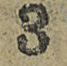3
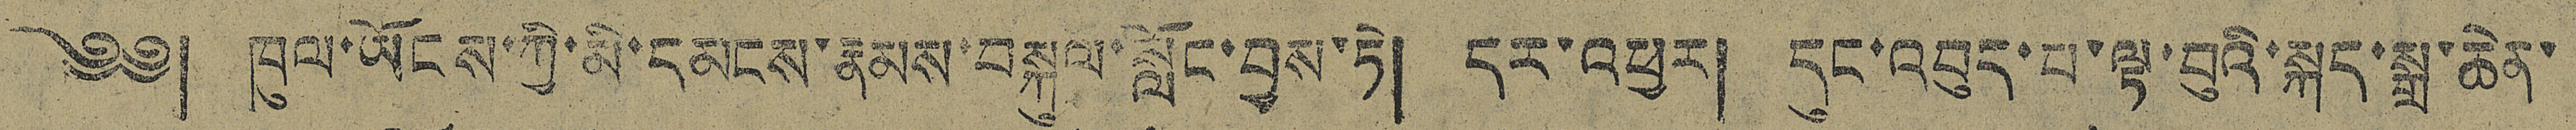༄༅། ཁུལ་ཡོངས་ཀྱི་མི་དམངས་རྣམས་བསྐུལ་སློང་བྱས་ཏེ། དར་འཕྱར། དུང་འབུད་པ་ལྟ་བུའི་སྐད་སྒྲ་ཆེན་
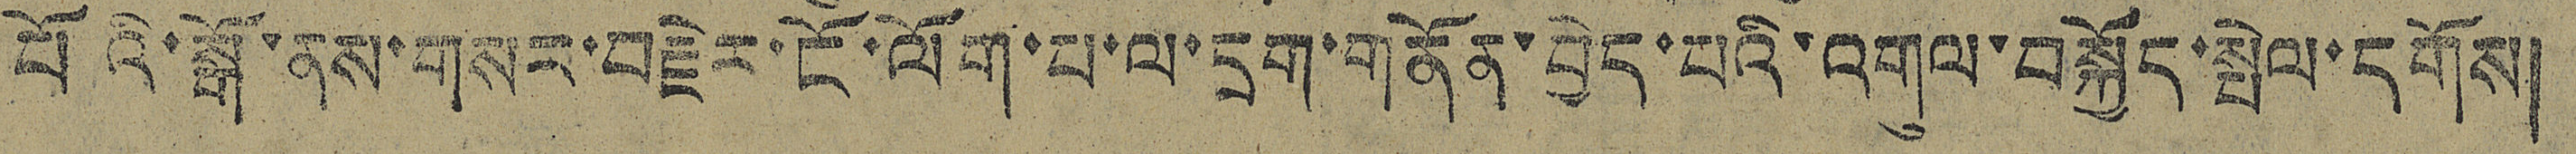པོའི་སྒོ་ནས་གསར་བརྗེར་ངོ་ལོག་པ་ལ་དྲག་གནོན་བྱེད་པའི་འགུལ་བསྐྱོད་སྤེལ་དགོས།
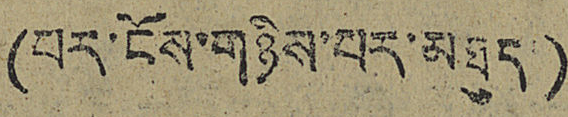(པར་ངོས་གཉིས་པར་མཐུད།)
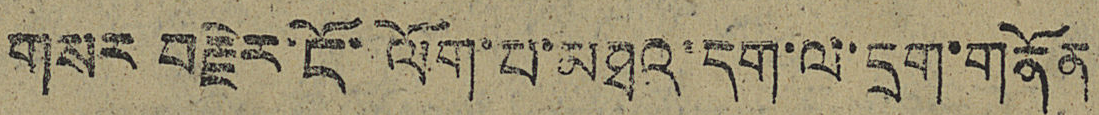གསར བརྗེར་ངོ་ལོག་པ་མཐའ་དག་ལ་དྲག་གནོན
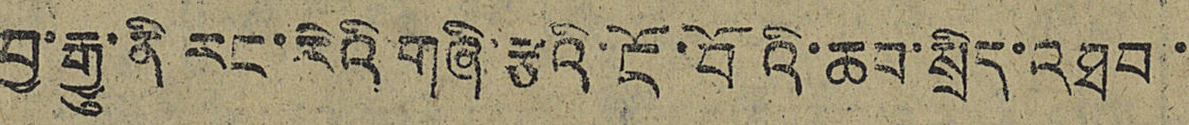བྱ་རྒྱུ་ནི རང་རེའི གཞི་རྩའི་ངོ་བོའི་ཆབ་སྲིད་འཐབ་
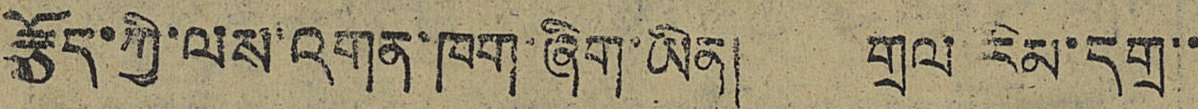རྩོད་ཀྱི་ལས་འགན་ཁག་ཞིག་ཡིན། གྲལ རིམ་དགྲ་་
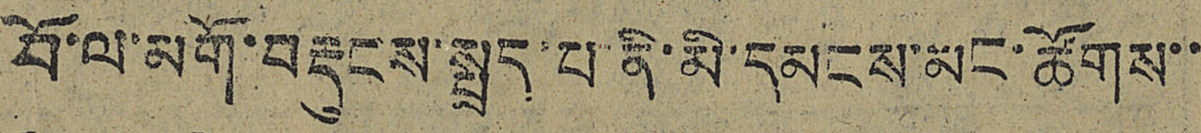བོ་ལ་མགོ་བརྡུངས་སྤྲད་པ་ནི་མི་དམངས་མང་ཚོགས་་
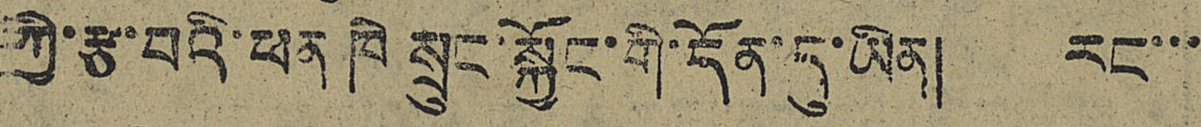ཀྱི་རྩ་བའི་ཕན ཁེ སྲུང་སྐྱོང་གི་དོན་དུ་ཡིན། རང་་་
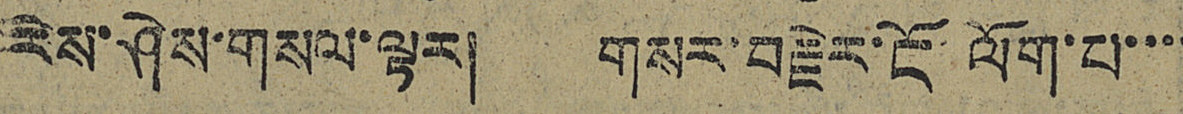རེས་ཤེས་གསལ་ལྟར། གསར་བརྗེར་ངོ་ལོག་པ་་་་
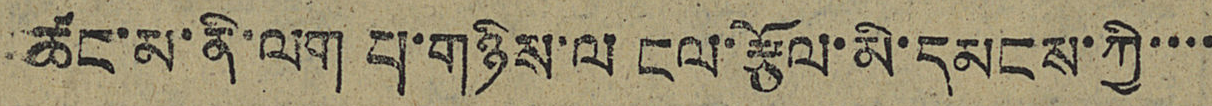ཚང་མ་ནི་ལག པ་གཉིས་ལ ངལ་རྩོལ་མི་དམངས་ཀྱི་་་་
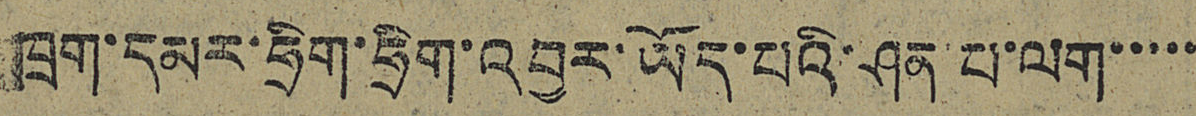ཁྲག་དམར་ཧྲིག་ཧྲིག་འབྱར་ཡོད་པའི་ཤན་པ་ལག་་་་་
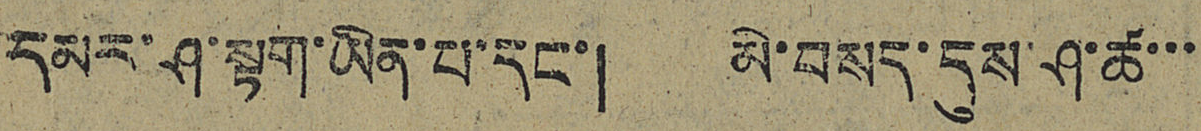དམར་ཤ་སྟག་ཡིན་པ་དང་། མི་བསད་དུས་ཤ་ཚ་་་
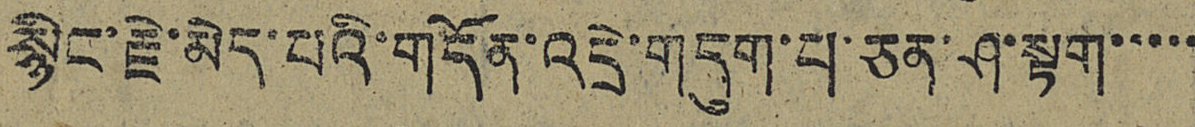སྙིང་རྗེ་མེད་པའི་གདོན་འདྲེ་གདུག་པ་ཅན་ཤ་སྟག་་་་་
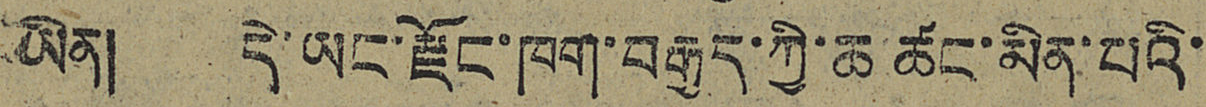ཡིན། དེ་ཡང་རྫོང་ཁག་བརྒྱད་ཀྱི་ཆ་ཚང་མིན་པའི་
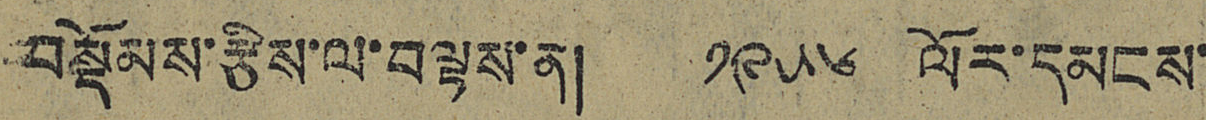བསྡོམས་རྩིས་ལ་བལྟས་ན། ༡༩༥༦ ལོར་དམངས་
